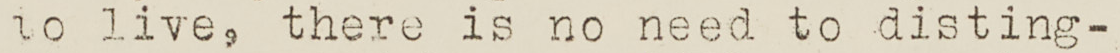to live, there is no need to disting-
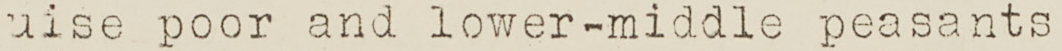uise poor and lower-middle peasants
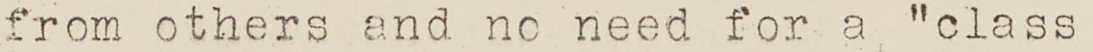from others and no need for a "class
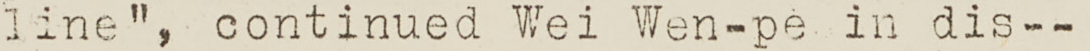line", continued Wei wen-pe in dis--
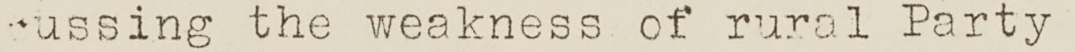cussing the weakness of rural Party
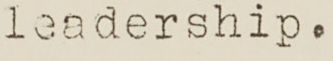leadership.
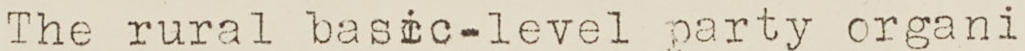The rural basic-level party organi
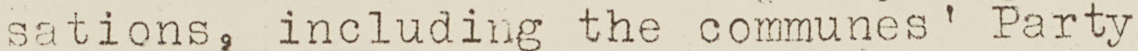sations, including the communes', Party
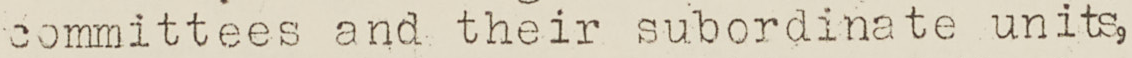committees and the subordinate units,
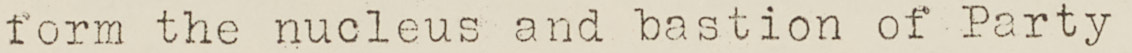form the nucleus and bastion of Party
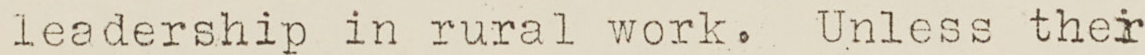leadership in rural work. Unless their
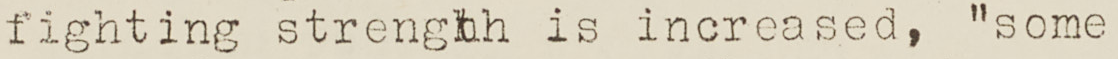fighting strength is increased, "some
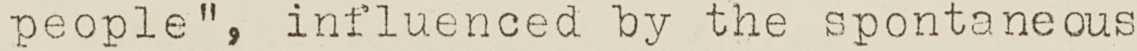people", influenced by the spontaneous
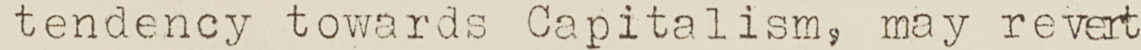tendency towards Capitalism, may revert
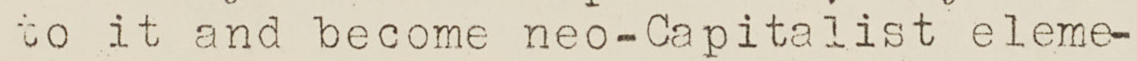to it and become neo-Capitalist eleme-
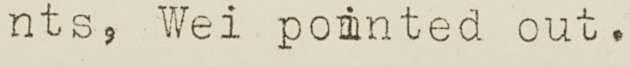nts, Wei pointed out.
